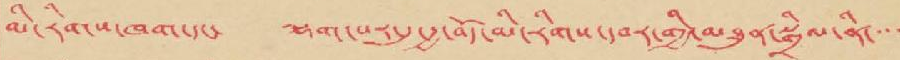མི་རིགས་ཁྲག་དང་། རྟག་པར་དུ་རྒྱ་བོད་མི་རིགས་དབར་གྱི་མཐུན་སྒྲིལ་ནི་་་་
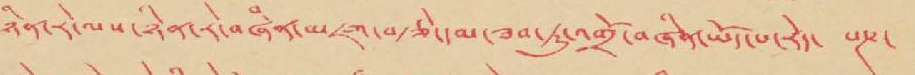ཉིན་རེ་ལས་ཉིན་རེ་བཞིན་མཛ་བཙེ་དམ་ཟབ་ཏུ་འགྲོ་བཞིན་ཡོད་པ་རེད། སྔ་
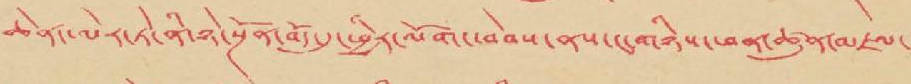ཆེན་མེར་དེ་ནི་ཉེ་སྔོན་བོད་དུ་སྤྱིར་ལོག་ཕེབས་ནས་ང་གཉིས་ཕན་ཚུན་མཇལ་
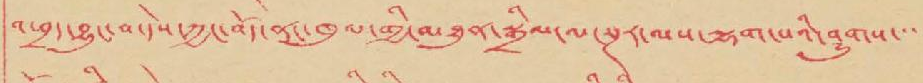འཕྲད་བྱུང་བ་དེས་ཀྱང་བོད་ཎག་ཁུལ་གྱི་མཐུན་སྒྲིལ་ལ་སྔར་ལས་ལྷག་པའི་བྱུགས་་་
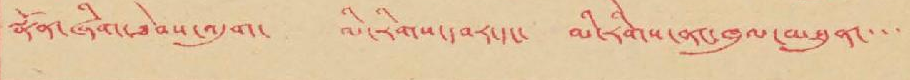ཞོན་ཞིག་ཐེབས་འདུག། མི་རིགས་དབར་དང་། མི་རིགས་ནང་ཁུལ་མཐུན་་་་
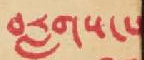བརླགས་པ
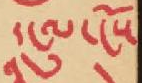དངུལ་ངོས
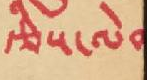ཙིས་ལེ
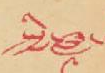སྤྱི་ཟླ་
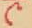༩
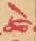ཚེ
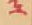༣
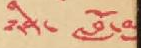ཉིན་བློ་
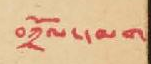བཀྲོལ་དམག་
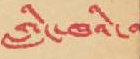གླིང་ཁྲའི་བ
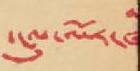དངུལ་ལོར་
